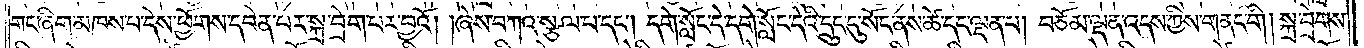གང་ཞིག་མཁས་པ་དེས་ཕྱོགས་དབེན་པར་སྐྲ་བྲེག་པར་བྱའོ། །ཞེས་བཀའ་སྩལ་པ་དང༌། དགེ་སློང་དེ་དགེ་སློང་དེའི་དྲུང་དུ་སོང་ནས་ཚེ་དང་ལྡན་པ། བཅོམ་ལྡན་འདས་ཀྱིས་གནང་གི། སྐྲ་བྲེགས་
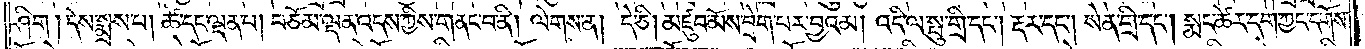ཤིག །དེས་སྨྲས་པ། ཚེ་དང་ལྡན་པ། བཅོམ་ལྡན་འདས་ཀྱིས་གནང་བ་ནི། ལེགས་ན། དེ་ཅི། མཛུབ་མོས་བྲེག་པར་བྱའམ། འདི་ལ་སྤུ་གྲི་དང༌། རྡར་དང༌། སེན་གྲི་དང༌། སྨང་ཚེར་དག་ཀྱང་དགོས་
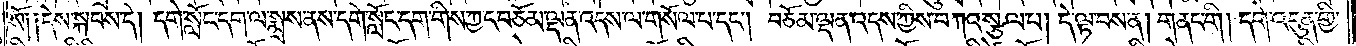སོ། །དེས་སྐབས་དེ། དགེ་སློང་དག་ལ་སྨྲས་ནས་དགེ་སློང་དག་གིས་ཀྱང་བཅོམ་ལྡན་འདས་ལ་གསོལ་པ་དང༌། བཅོམ་ལྡན་འདས་ཀྱིས་བཀའ་སྩལ་པ། དེ་ལྟ་བས་ན། གནང་གི། དགེ་འདུན་གྱི་
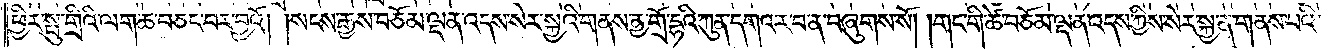ཕྱིར་སྤུ་གྲིའི་ལག་ཆ་བཅང་བར་བྱའོ། །སངས་རྒྱས་བཅོམ་ལྡན་འདས་སེར་སྐྱའི་གནས་ནྱ་གྲོ་དྷའི་ཀུན་དགའ་ར་བ་ན་བཞུགས་སོ། །གང་གི་ཚེ་བཅོམ་ལྡན་འདས་ཀྱིས་སེར་སྐྱ་ན་གནས་པའི་
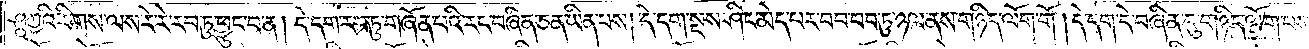ཤཱཀྱའི་རིགས་ལས་རེ་རེ་རབ་ཏུ་ཕྱུང་བ་ན། དེ་དག་རབ་ཏུ་གཞོན་པའི་རང་བཞིན་ཅན་ཡིན་པས། དེ་དག་སྔས་ཤིང་མེད་པར་བབ་བབ་ཏུ་ཉལ་ནས་གཉིད་ལོག་གོ །དེ་དག་དེ་བཞིན་དུ་གཉིད་ལོག་པས་
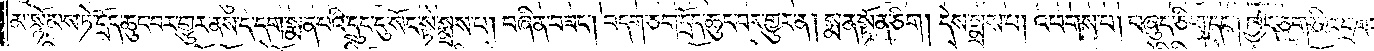མ་སྙོམས་ཏེ་དྲོད་ཆུང་བར་གྱུར་ནས་དེ་དག་སྨན་པའི་དྲུང་དུ་སོང་སྟེ་སྨྲས་པ། བཞིན་བཟང༌། བདག་ཅག་དྲོད་ཆུང་བར་གྱུར་ན། སྨན་སྟོན་ཅིག། དེས་སྨྲས་པ། འཕགས་པ། བཞུད་ཅིག་དང༌། ཁྱེད་ཅག་ཅི་འདྲ་བར་
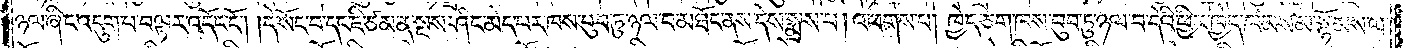ཉལ་ཞིང་འདུག་པ་བལྟར་འདོང་ངོ༌། །དེ་སོང་བ་དང་ཇི་ཙམ་ན་སྔས་ཤིང་མེད་པར་ཁས་བུབ་ཏུ་ཉལ་བ་མཐོང་ནས་དེས་སྨྲས་པ། འཕགས་པ། ཁྱེད་ཅག་ཁས་བུབ་ཏུ་ཉལ་བ་དེའི་ཕྱིར་ཁྱེད་ཁམས་མ་སྙོམས་ལ་
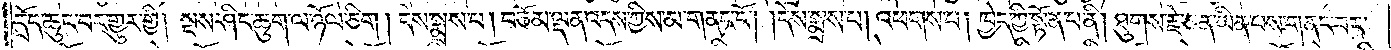དྲོད་ཆུང་བར་གྱུར་གྱི། སྔས་ཤིང་ཆུག་ལ་ཉོལ་ཅིག། དེས་སྨྲས་པ། བཅོམ་ལྡན་འདས་ཀྱིས་མ་གནང་ངོ༌། །དེས་སྨྲས་པ། འཕགས་པ། ཁྱེད་ཀྱི་སྟོན་པ་ནི། ཐུགས་རྗེ་ཅན་ཡིན་པས་གནང་བར་
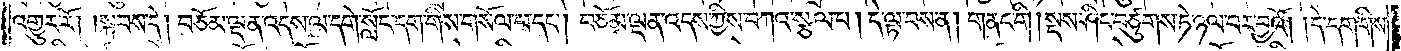འགྱུར་རོ། །སྐབས་དེ། བཅོམ་ལྡན་འདས་ལ་དགེ་སློང་དག་གིས་གསོལ་པ་དང༌། བཅོམ་ལྡན་འདས་ཀྱིས་བཀའ་སྩལ་པ། དེ་ལྟ་བས་ན། གནང་གི། སྔས་ཤིང་བཙུགས་ཏེ་ཉལ་བར་བྱའོ། །དེ་དག་གིས་
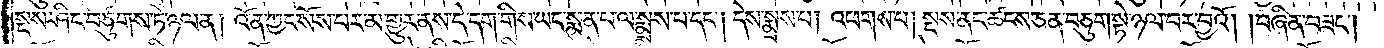སྔས་ཤིང་བཙུགས་ཏེ་ཉལ་ན། འོན་ཀྱང་སོས་པར་མ་གྱུར་ནས་དེ་དག་གིས་ཡང་སྨན་པ་ལ་སྨྲས་པ་དང༌། དེས་སྨྲས་པ། འཕགས་པ། སྔས་ནང་ཚངས་ཅན་བཅུག་སྟེ་ཉལ་བར་བྱའོ། །བཞིན་བཟང༌།
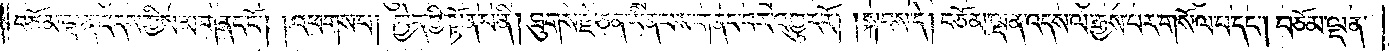བཅོམ་ལྡན་འདས་ཀྱིས་མ་གནང་ངོ༌། །འཕགས་པ། ཁྱེད་ཀྱི་སྟོན་པ་ནི། ཐུགས་རྗེ་ཅན་ཡིན་པས་གནང་བར་འགྱུར་རོ། །སྐབས་དེ། བཅོམ་ལྡན་འདས་ལ་རྒྱས་པར་གསོལ་པ་དང༌། བཅོམ་ལྡན་
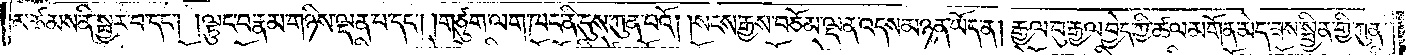མཚམས་ནི་སྦྱར་བ་དང༌། །ལྟུང་བ་རྣམ་གཉིས་ལྡན་པ་དང༌། །གཙུག་ལག་ཁང་ནི་དུས་ཀུན་པའོ། །སངས་རྒྱས་བཅོམ་ལྡན་འདས་མཉན་ཡོད་ན། རྒྱལ་བུ་རྒྱལ་བྱེད་ཀྱི་ཚལ་མགོན་མེད་ཟས་སྦྱིན་གྱི་ཀུན་
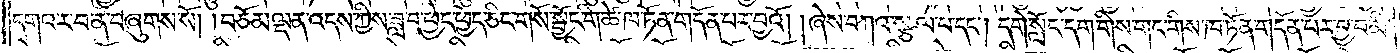དགའ་རབ་ན་བཞུགས་སོ། །བཅོམ་ལྡན་འདས་ཀྱིས་ཟླ་བ་ཕྱེད་ཕྱེད་ཅིང་གསོ་སྦྱོང་གི་ཚེ་ཁ་ཏོན་གདོན་པར་བྱའོ། །ཞེས་བཀའ་སྩལ་པ་དང༌། དགེ་སློང་དག་གིས་གང་གིས་ཁ་ཏོན་གདོན་པར་བྱ་བ་མི་
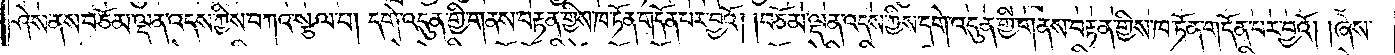ཤེས་ནས་བཅོམ་ལྡན་འདས་ཀྱིས་བཀའ་སྩལ་པ། དགེ་འདུན་གྱི་གནས་བརྟན་གྱིས་ཁ་ཏོན་གདོན་པར་བྱའོ། །བཅོམ་ལྡན་འདས་ཀྱིས་དགེ་འདུན་གྱི་གནས་བརྟན་གྱིས་ཁ་ཏོན་གདོན་པར་བྱའོ། །ཞེས་
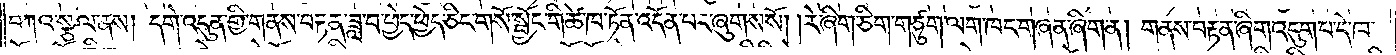བཀའ་སྩལ་ནས། དགེ་འདུན་གྱི་གནས་བརྟན་ཟླ་བ་ཕྱེད་ཕྱེད་ཅིང་གསོ་སྦྱོང་གི་ཚེ་ཁ་ཏོན་འདོན་པར་ཞུགས་སོ། །རེ་ཞིག་ཅིག་གཙུག་ལག་ཁང་གཞན་ཞིག་ན། གནས་བརྟན་ཞིག་འདུག་པ་དེ་ཁ་
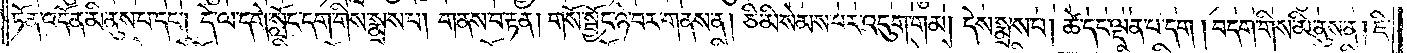ཏོན་འདོན་མི་ནུས་པ་དང༌། དེ་ལ་དགེ་སློང་དག་གིས་སྨྲས་པ། གནས་བརྟན། གསོ་སྦྱོང་ཉེ་བར་གནས་ན། ཅི་མི་སེམས་པར་འདུག་གམ། དེས་སྨྲས་པ། ཚེ་དང་ལྡན་པ་དག། བདག་གིས་མི་ནུས་ན། ཇི་
